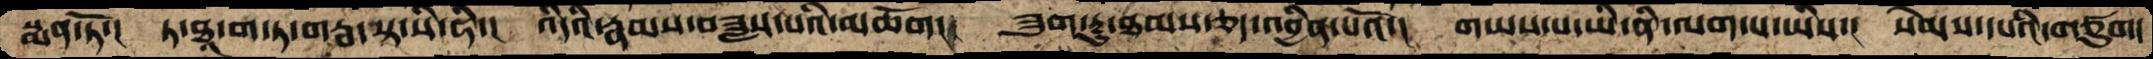སྨན་ཏོ་།  ཏ་ཐཱ་ག་ཏ་གརྦ་སྟ་སི་ཧི་།  འདིའི་རྣམས་བཟླས་པའི་མཆོག།  ཟུག་རྔུ་ཐམས་ཅད་འབྱིན་པའོ་།  གཡས་པ་ཡི་ནི་ལག་པ་ཡིས་།  སེམས་པའི་གཙུག་
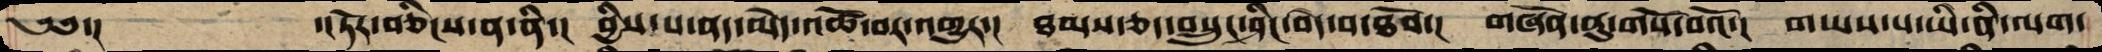༄༅་།    ་།ཏོར་བཅིངས་ན་ནི་།  བྱིས་པ་ནད་མེད་འཚོ་བར་འགྱུར་།  ཐམས་ཅད་བསྲུང་ཤིང་བདེ་བ་ཐོབ་།  གཞོན་ནུ་གསོ་བའོ་།  གཡས་པ་ཡི་ནི་ལག་
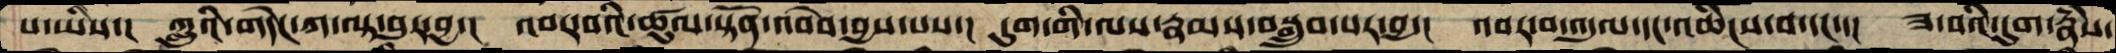པ་ཡིས་།  ཀླུའི་གདེང་ཀ་ལྟ་བུར་བྱ་།  འབར་བའི་ཚུལ་སྟོན་འབེབ་བྱས་པས་།  དུག་གི་ལས་རྣམས་བསྒྲུབ་པར་བྱ་།  འབར་བ་འདུལ་དང་འཆིངས་བ་དང་་།  ཟ་བའི་དུག་རྣཾས་
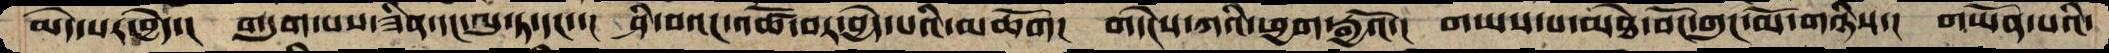མེད་པར་བྱེད་།  གདུག་པས་ཟིན་དང་ལུ་ཏ་དང་།  ཤི་བའང་འཚོ་བར་བྱེད་པའི་མཆོག།  གདེངས་ཀའི་ཕྱག་རྒྱའོ་།  གཡས་པ་མཐེ་བོང་གུང་མོ་གཉིས་།  གཡོན་པའི་
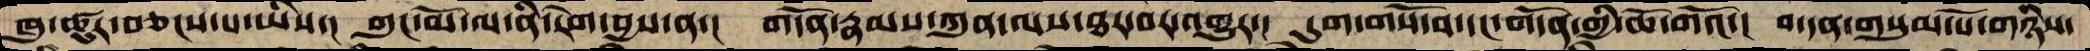ཁུ་ཚུར་བཅངས་པ་ཡིས་།  གུང་མོ་ལ་ནི་རེག་བྱས་ན་།  གདོན་རྣམས་ཀུན་ལས་ཐར་བར་འགྱུར་།  དུག་གསོ་བ་དང་གདོན་གྱི་ཆོ་གའོ་།  བ་དན་གསུམ་པོ་གཉིས་
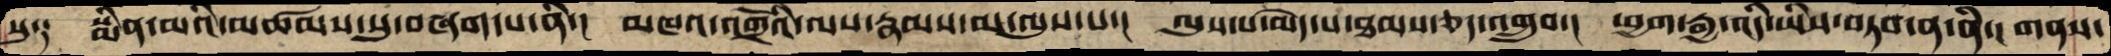སུ༑  སྨིན་མའི་མཚམས་སུ་བཞག་པ་ནི་།  མཁའ་འགྲོའི་ལས་རྣམས་མ་ལུས་པ་།  ལུས་པ་མེད་པ་ཐམས་ཅད་འགྲུབ་།  ཕྱག་རྒྱ་འདི་ཡིས་བཏབ་ན་ནི་།  གནས་
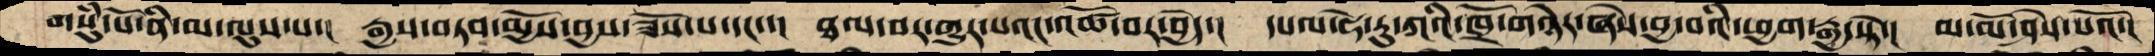གསུཾ་པོ་ནི་མ་ལུས་པ་།  རྒྱས་བཏབ་མྱོས་བྱས་ཟོས་པ་དང་་།  ཐལ་བར་གྱུར་པའང་འཚོ་བར་བྱེད་།  དཔལ་ཧེ་རུ་ཀའི་ཁྲོ་གཉེར་ཞེས་བྱ་བའི་ཕྱག་རྒྱ་སྟེ་།  མ་མོ་ཤེས་པའོ་།
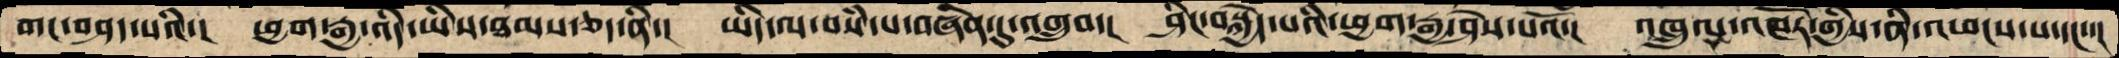གང་བཤད་པའི་།  ཕྱག་རྒྱ་འདི་ཡིས་ཐམས་ཅད་ནི་།  ཡིད་ལ་བསཾ་པ་བཞིན་དུ་འགྲུབ་།  ཤིང་བསྐྱེད་པའི་ཕྱག་རྒྱ་ཤེས་པའོ་།  འཁྲུལ་འཁོར་གྱིས་ནི་འཕངས་པ་དང་་།
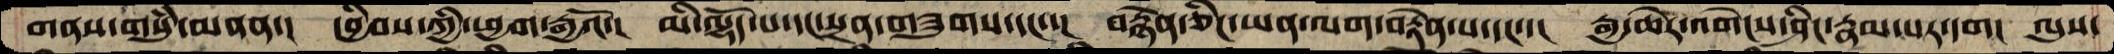གནས་གསུཾ་མནན་།  དབྱིབས་ཀྱི་ཕྱག་རྒྱའོ་།  མི་ལྷོད་པ་དང་སྲན་གཟུགས་དང་་།  བརྙེན་ཅིང་ཡན་ལག་བརྟེན་པ་དང་་།  རྒྱ་ཆེར་འགེངས་ཤིང་རྣམ་པར་དག།  ལུས་
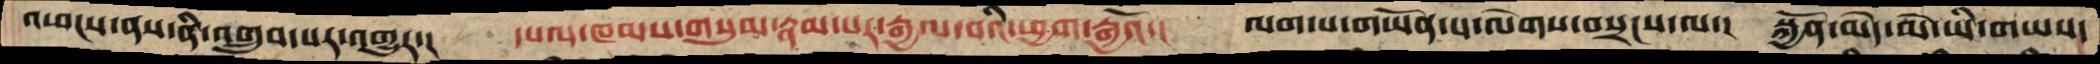འཕངས་ནས་ནི་འགྲུབ་པར་འགྱུར་།  དཔལ་ཁམས་གསུམ་རྣམ་པར་རྒྱལ་བའི་ཕྱག་རྒྱའོ་།  ལག་པ་གཡོན་པ་ལེགས་བསྲངས་ལ་།  སྐྱོན་མེད་མེ་ཡི་གཡས་
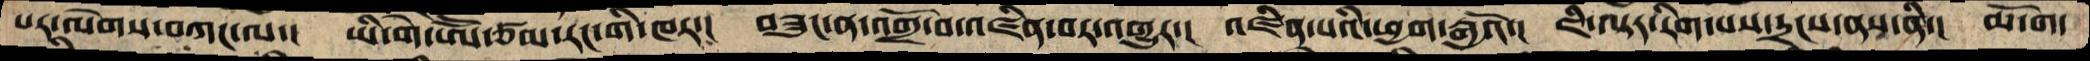པར་ལེགས་བཀང་ལ་།  ཡི་གེ་ཨོོ་ཙམ་རང་གི་ཁར་།  བཟུང་ན་འགྲོ་བ་འཛིན་བར་འགྱུར་།  འཛིན་པའི་ཕྱག་རྒྱའོ་།  ཇི་ལྟར་རིག་པས་དྲངས་ནས་ནི་།  མདོག་
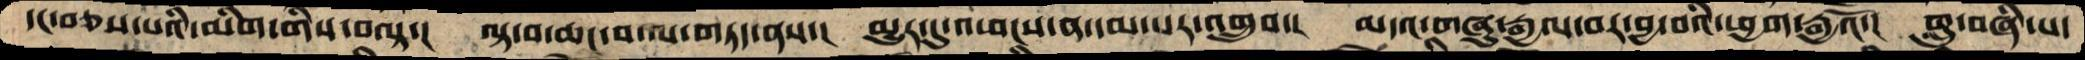དང་བཅས་པའི་མིག་གིས་བལྟ་།  ལྟ་བ་ཆང་བ་ལ་གཏད་ནས་།  མྱུར་དུ་འཕངས་ན་དམ་པར་འགྲུབ་།  མདའ་གཞུ་རྒྱལ་བར་བྱ་བའི་ཕྱག་རྒྱའོ་།  གླུ་བཞི་པ་
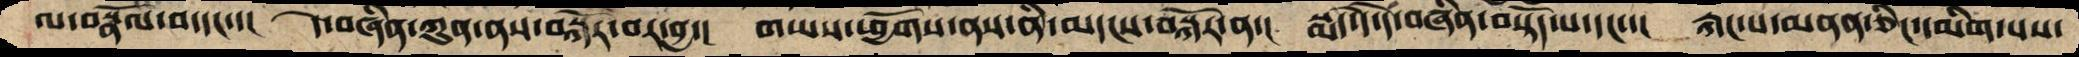ལ་བསྣོལ་བ་དང་་།  དེ་བཞིན་ཀུན་ནས་བསྐོར་བར་བྱ་།  གཡས་ཕྱོགས་ནས་ནི་མདངས་བསྐོར་ན་།  སྨ་དེ་དེ་བཞིན་བསྟོད་པ་དང་་།  རྐང་པ་མནན་ཅིང་དམིག་པས་
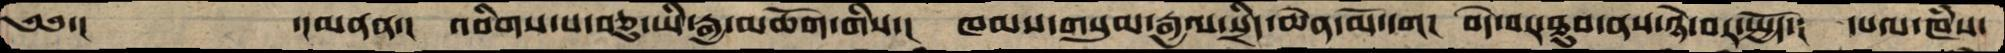༄༅་།     ་།མནན་།  འབིགས་པ་བཅུ་ཡི་རྒྱ་མཆོག་གིས་།  ཁམས་གསུམ་རྒྱལ་སྲིད་ཆེན་མོ་དག།  བདེ་བར་ཐུབ་ནས་ཉེ་བར་སྤྱོད་།  དཔལ་ཁཾས་
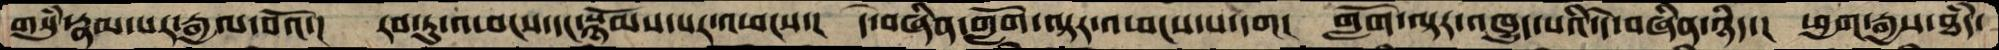གསུཾ་རྣམ་པར་རྒྱལ་བའོ་།  རབ་ཏུ་འཕངས་དང་སྙོམས་པར་འཕངས་།  དེ་བཞིན་གློག་ལྟར་འཕངས་པ་དག།  གློག་ལྟར་འཁྱུད་པའི་དེ་བཞིན་ཉིད་།  ཕྱག་རྒྱས་ཐདཾ་
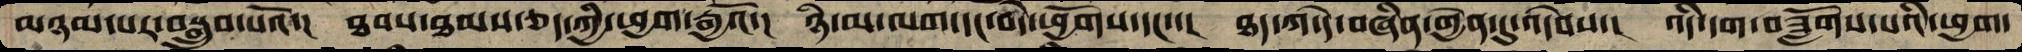མཉམ་པར་བསྒྲུབ་པའོ་།  ཐབས་ཐམས་ཅད་ཀྱི་ཕྱག་རྒྱའོ་  ཉི་མ་ལག་དང་བདེ་ཕྱོགས་དང་་།  ཐད་ཀ་དེ་བཞིན་གྱེན་དུ་འདེབས་།  འདི་དག་བཟློགས་པའི་ཕྱག་
